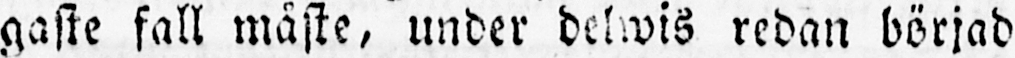gaste fall måste, under delwis redan börjad
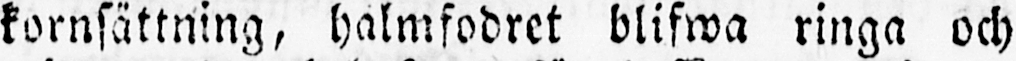kornsättning, halmfodret blifwa ringa och
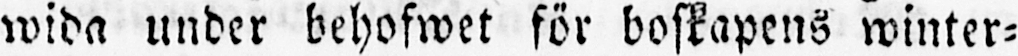wida under behofwet för boskapens winter-
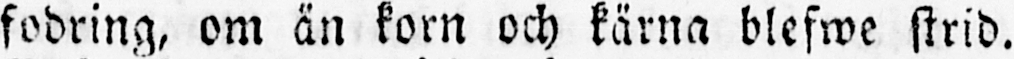fodring, om än korn och kärna blefwe strid.
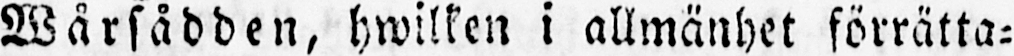Wårsådden, hwilken i allmänhet förrätta-
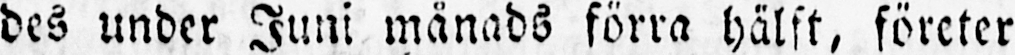des under Juni månads förra hälft, företer
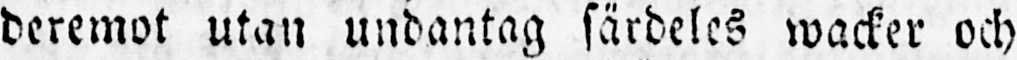deremot utan undantag särdeles wacker och
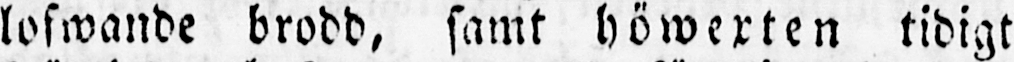lofwande brodd, samt höwexten tidigt
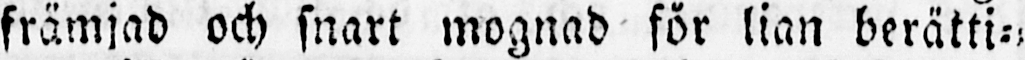främjad och snart mognad för lian berätti-
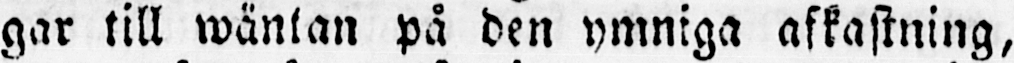gar till wäntan på den ymniga afkastning,
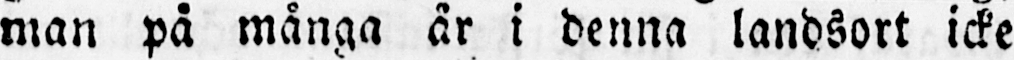man på många år i denna landsort icke
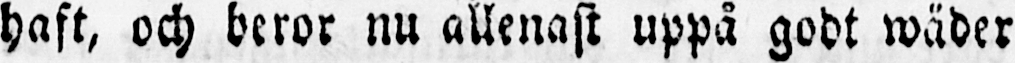haft, och beror nu allenast uppå godt wäder
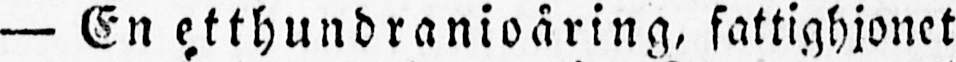— En etthundranioåring, fattighjonet
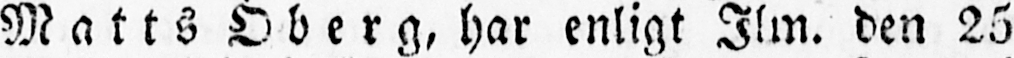Matts Öberg, har enligt Ilm. den 25
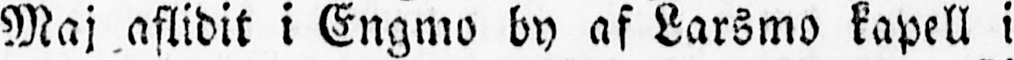Maj aflidit i Engmo by af Larsmo kapell i
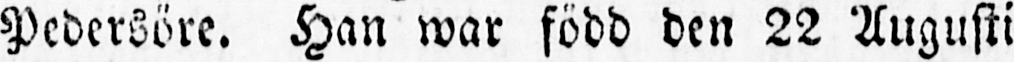Pedersöre. Han war född den 22 Augusti
